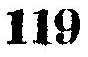119
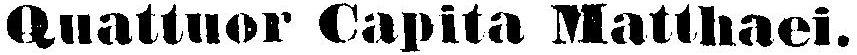Quattuor Capita Matthaei.
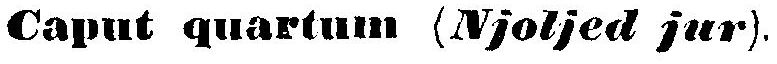Caput quartum (Njoljed jur).
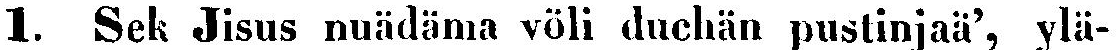1. Sek Jisus nuädäma völi duchän pustinjaä', ylä-
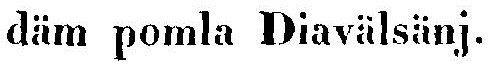däm pomla Diavälsänj.
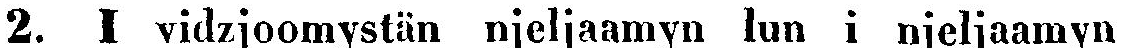2. I vidzjoomystän njeljaamyn lun i njeljaamyn
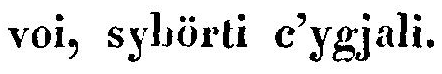voi, sybörti c'ygjali.
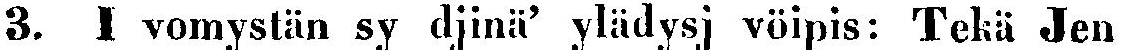3. I vomystän sy djinä' ylädysj vöipis: Tekä Jen
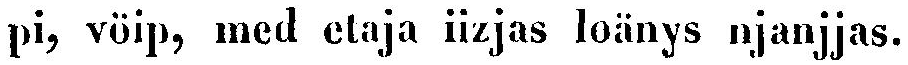pi, vöip, med etaja iizjas loänys njanjjas.
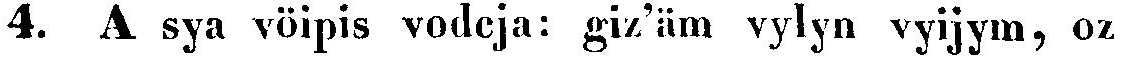4. A sya vöipis vodcja: giz'äm vylyn vyijym, oz
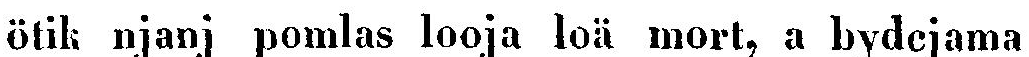ötik njanj pomlas looja loä mort, a bydcjama
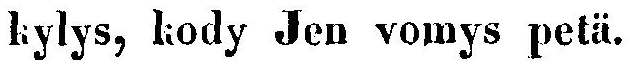kylys, kody Jen vomys petä.
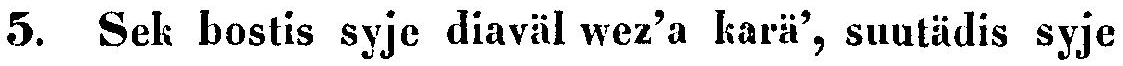5. Sek bostis syje diaväl wez'a karä', suutädis syje
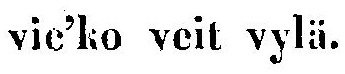vic'ko veit vylä.
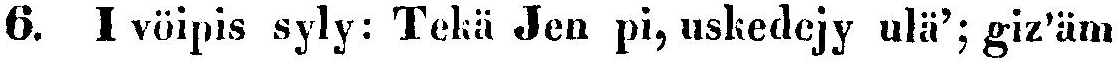6. I vöipis syly: Tekä Jen pi, uskedejy ulä'; giz'äm
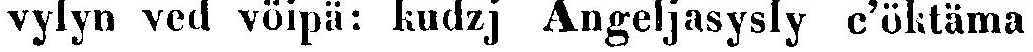vylyn ved vöipä: kudzj Angeljasysly c'öktäma
